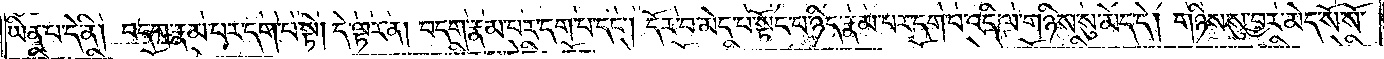ཡིན་པ་དེ་ནི། བདག་རྣམ་པར་དག་པ་སྟེ། དེ་ལྟར་ན། བདག་རྣམ་པར་དག་པ་དང༌། དོར་བ་མེད་པ་སྟོང་པ་ཉིད་རྣམ་པར་དག་པ་འདི་ལ་གཉིས་སུ་མེད་དེ། གཉིས་སུ་བྱར་མེད་སོ་སོ་
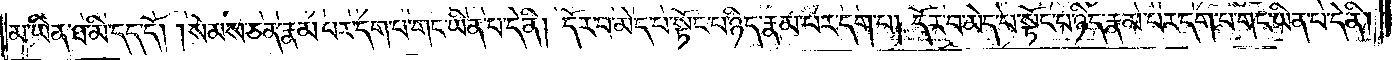མ་ཡིན་ཐ་མི་དད་དོ། །སེམས་ཅན་རྣམ་པར་དག་པ་གང་ཡིན་པ་དེ་ནི། དོར་བ་མེད་པ་སྟོང་པ་ཉིད་རྣམ་པར་དག་པ། དོར་བ་མེད་པ་སྟོང་པ་ཉིད་རྣམ་པར་དག་པ་གང་ཡིན་པ་དེ་ནི།
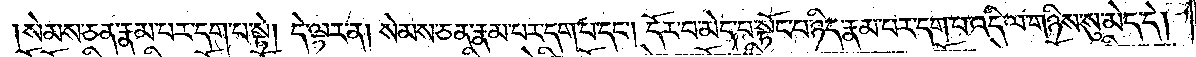སེམས་ཅན་རྣམ་པར་དག་པ་སྟེ། དེ་ལྟར་ན། སེམས་ཅན་རྣམ་པར་དག་པ་དང༌། དོར་བ་མེད་པ་སྟོང་པ་ཉིད་རྣམ་པར་དག་པ་འདི་ལ་གཉིས་སུ་མེད་དེ།
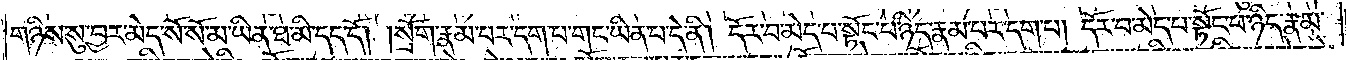གཉིས་སུ་བྱར་མེད་སོ་སོ་མ་ཡིན་ཐ་མི་དད་དོ། །སྲོག་རྣམ་པར་དག་པ་གང་ཡིན་པ་དེ་ནི། དོར་བ་མེད་པ་སྟོང་པ་ཉིད་རྣམ་པར་དག་པ། དོར་བ་མེད་པ་སྟོང་པ་ཉིད་རྣམ་
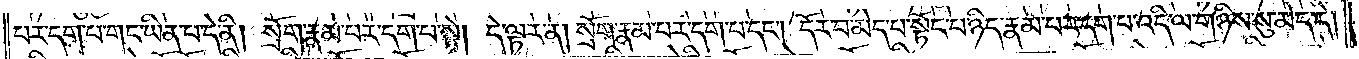པར་དག་པ་གང་ཡིན་པ་དེ་ནི། སྲོག་རྣམ་པར་དག་པ་སྟེ། དེ་ལྟར་ན། སྲོག་རྣམ་པར་དག་པ་དང༌། དོར་བ་མེད་པ་སྟོང་པ་ཉིད་རྣམ་པར་དག་པ་འདི་ལ་གཉིས་སུ་མེད་དེ།
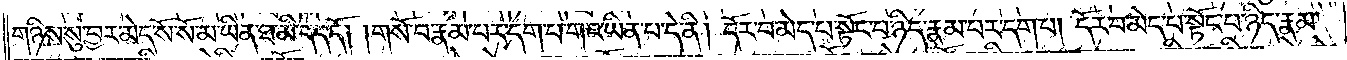གཉིས་སུ་བྱར་མེད་སོ་སོ་མ་ཡིན་ཐ་མི་དད་དོ། །གསོ་བ་རྣམ་པར་དག་པ་གང་ཡིན་པ་དེ་ནི། དོར་བ་མེད་པ་སྟོང་པ་ཉིད་རྣམ་པར་དག་པ། དོར་བ་མེད་པ་སྟོང་པ་ཉིད་རྣམ་
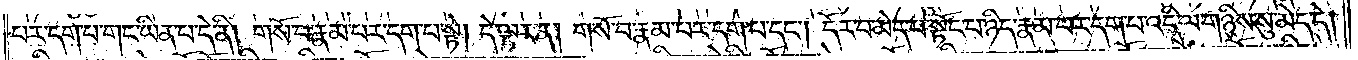པར་དག་པ་གང་ཡིན་པ་དེ་ནི། གསོ་བ་རྣམ་པར་དག་པ་སྟེ། དེ་ལྟར་ན། གསོ་བ་རྣམ་པར་དག་པ་དང༌། དོར་བ་མེད་པ་སྟོང་པ་ཉིད་རྣམ་པར་དག་པ་འདི་ལ་གཉིས་སུ་མེད་དེ།
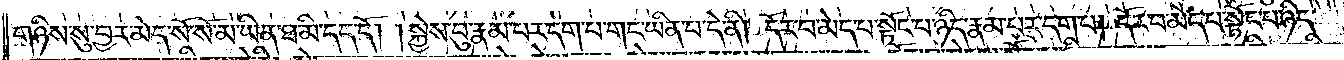གཉིས་སུ་བྱར་མེད་སོ་སོ་མ་ཡིན་ཐ་མི་དད་དོ། །སྐྱེས་བུ་རྣམ་པར་དག་པ་གང་ཡིན་པ་དེ་ནི། དོར་བ་མེད་པ་སྟོང་པ་ཉིད་རྣམ་པར་དག་པ། དོར་བ་མེད་པ་སྟོང་པ་ཉིད་
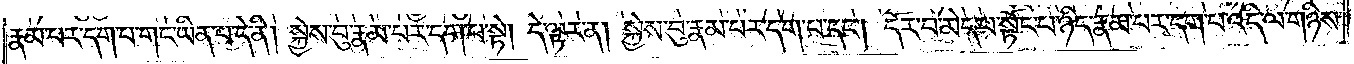རྣམ་པར་དག་པ་གང་ཡིན་པ་དེ་ནི། སྐྱེས་བུ་རྣམ་པར་དག་པ་སྟེ། དེ་ལྟར་ན། སྐྱེས་བུ་རྣམ་པར་དག་པ་དང༌། དོར་བ་མེད་པ་སྟོང་པ་ཉིད་རྣམ་པར་དག་པ་འདི་ལ་གཉིས་
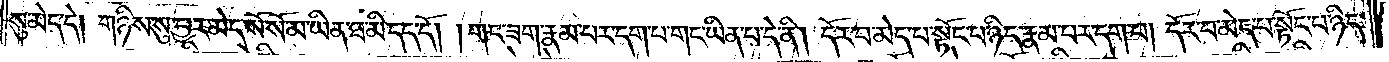སུ་མེད་དེ། གཉིས་སུ་བྱར་མེད་སོ་སོ་མ་ཡིན་ཐ་མི་དད་དོ། །གང་ཟག་རྣམ་པར་དག་པ་གང་ཡིན་པ་དེ་ནི། དོར་བ་མེད་པ་སྟོང་པ་ཉིད་རྣམ་པར་དག་པ། དོར་བ་མེད་པ་སྟོང་པ་ཉིད་
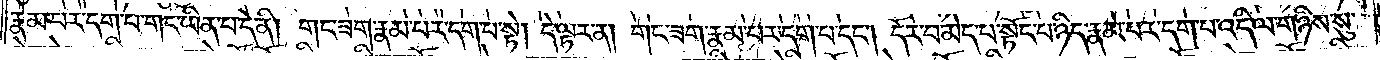རྣམ་པར་དག་པ་གང་ཡིན་པ་དེ་ནི། གང་ཟག་རྣམ་པར་དག་པ་སྟེ། དེ་ལྟར་ན། གང་ཟག་རྣམ་པར་དག་པ་དང༌། དོར་བ་མེད་པ་སྟོང་པ་ཉིད་རྣམ་པར་དག་པ་འདི་ལ་གཉིས་སུ་
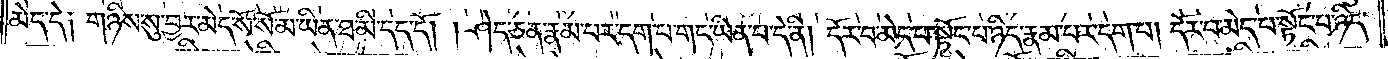མེད་དེ། གཉིས་སུ་བྱར་མེད་སོ་སོ་མ་ཡིན་ཐ་མི་དད་དོ། །ཤེད་ཅན་རྣམ་པར་དག་པ་གང་ཡིན་པ་དེ་ནི། དོར་བ་མེད་པ་སྟོང་པ་ཉིད་རྣམ་པར་དག་པ། དོར་བ་མེད་པ་སྟོང་པ་ཉིད་
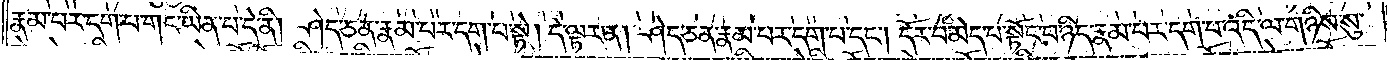རྣམ་པར་དག་པ་གང་ཡིན་པ་དེ་ནི། ཤེད་ཅན་རྣམ་པར་དག་པ་སྟེ། དེ་ལྟར་ན། ཤེད་ཅན་རྣམ་པར་དག་པ་དང༌། དོར་བ་མེད་པ་སྟོང་པ་ཉིད་རྣམ་པར་དག་པ་འདི་ལ་གཉིས་སུ་
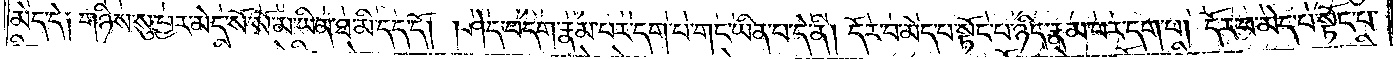མེད་དེ། གཉིས་སུ་བྱར་མེད་སོ་སོ་མ་ཡིན་ཐ་མི་དད་དོ། །ཤེད་བདག་རྣམ་པར་དག་པ་གང་ཡིན་པ་དེ་ནི། དོར་བ་མེད་པ་སྟོང་པ་ཉིད་རྣམ་པར་དག་པ། དོར་བ་མེད་པ་སྟོང་པ་
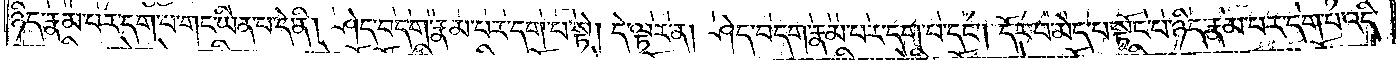ཉིད་རྣམ་པར་དག་པ་གང་ཡིན་པ་དེ་ནི། ཤེད་བདག་རྣམ་པར་དག་པ་སྟེ། དེ་ལྟར་ན། ཤེད་བདག་རྣམ་པར་དག་པ་དང༌། དོར་བ་མེད་པ་སྟོང་པ་ཉིད་རྣམ་པར་དག་པ་འདི་
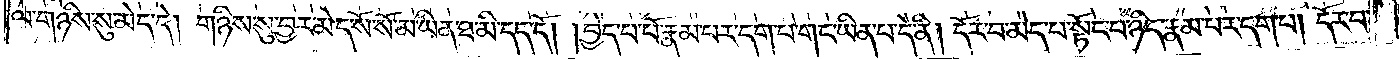ལ་གཉིས་སུ་མེད་དེ། གཉིས་སུ་བྱར་མེད་སོ་སོ་མ་ཡིན་ཐ་མི་དད་དོ། ། བྱེད་པ་པོ་རྣམ་པར་དག་པ་གང་ཡིན་པ་དེ་ནི། དོར་བ་མེད་པ་སྟོང་པ་ཉིད་རྣམ་པར་དག་པ། དོར་བ་
